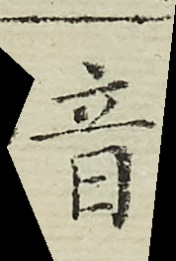音
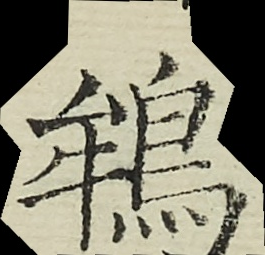鴾
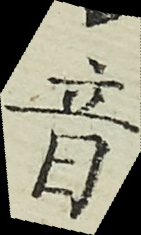音
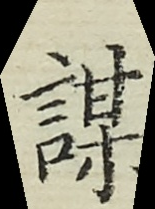謀
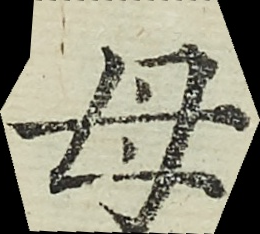母
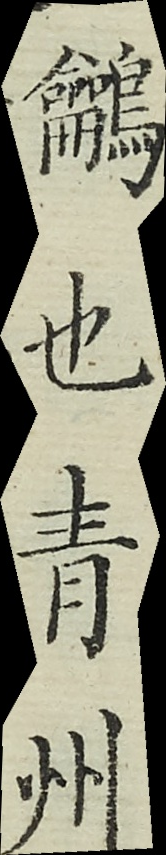鸙也青州
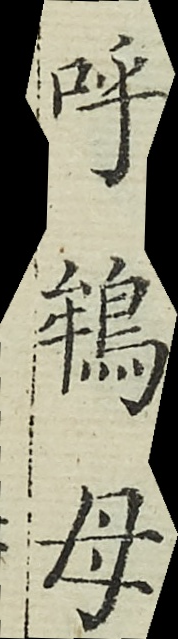呼鴾母
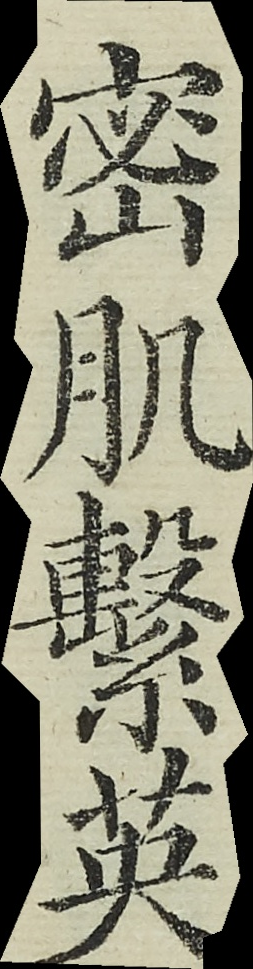密肌繫英
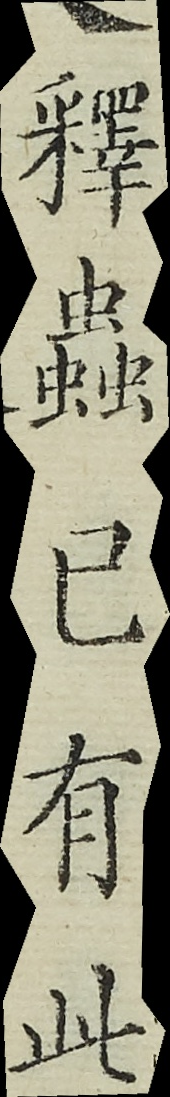釋蟲已有此
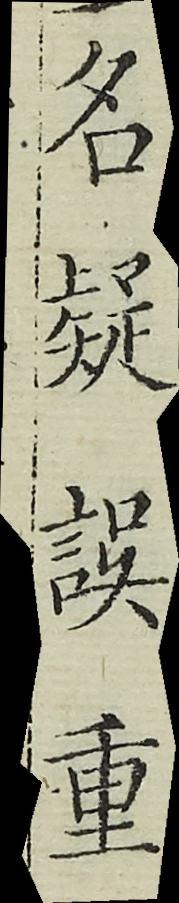名疑誤重
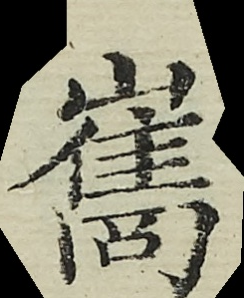巂
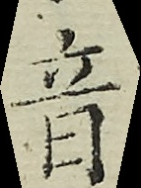音
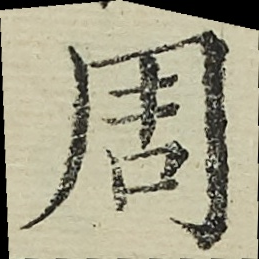周
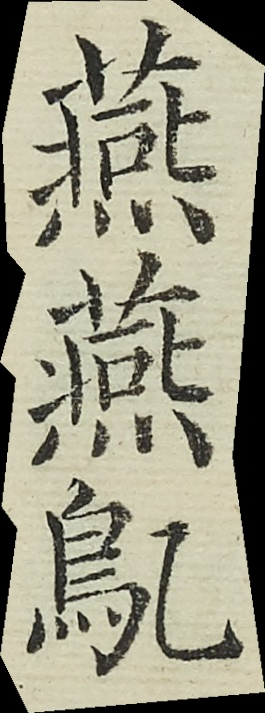燕燕鳦
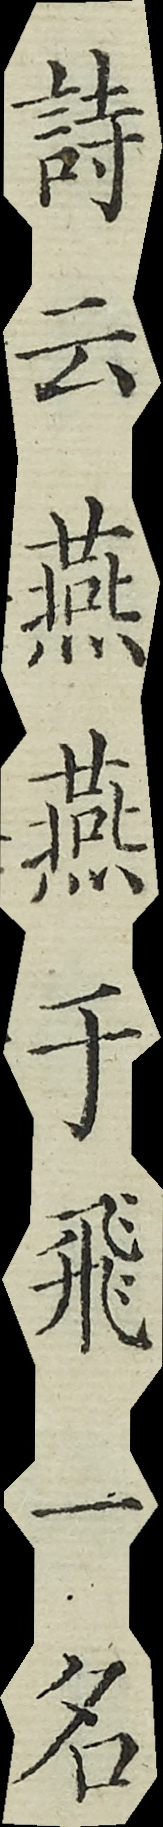詩云燕燕于飛一名
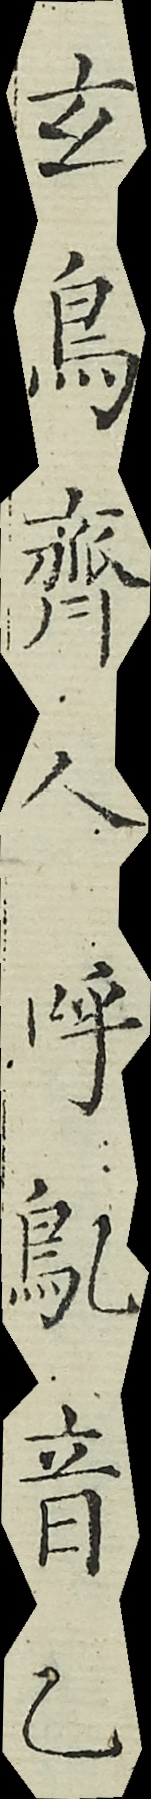玄鳥齊人呼鳦音乙
